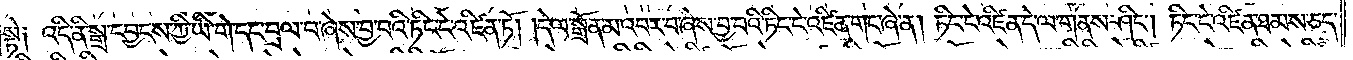སྟེ༑ འདི་ནི་སྒྲ་དབྱངས་ཀྱི་ཡི་གེ་དང་བྲལ་བ་ཞེས་བྱ་བའི་ཏིང་ངེ་འཛིན་ཏོ། །དེ་ལ་སྒྲོན་མ་འབར་བ་ཞེས་བྱ་བའི་ཏིང་ངེ་འཛིན་གང་ཞེ་ན། ཏིང་ངེ་འཛིན་དེ་ལ་གནས་ཤིང༌། ཏིང་ངེ་འཛིན་ཐམས་ཅད་
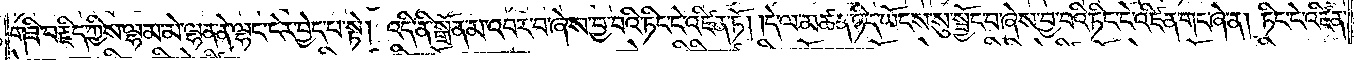གཟི་བརྗིད་ཀྱིས་ལྷམ་མེ་ལྷན་ནེ་ལྷང་ངེར་བྱེད་པ་སྟེ། འདི་ནི་སྒྲོན་མ་འབར་བ་ཞེས་བྱ་བའི་ཏིང་ངེ་འཛིན་ཏོ། །དེ་ལ་མཚན་ཉིད་ཡོངས་སུ་སྦྱོང་བ་ཞེས་བྱ་བའི་ཏིང་ངེ་འཛིན་གང་ཞེ་ན། ཏིང་ངེ་འཛིན་
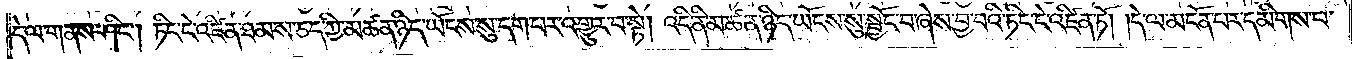དེ་ལ་གནས་ཤིང༌། ཏིང་ངེ་འཛིན་ཐམས་ཅད་ཀྱི་མཚན་ཉིད་ཡོངས་སུ་དག་པར་འགྱུར་བ་སྟེ། འདི་ནི་མཚན་ཉིད་ཡོངས་སུ་སྤྱོད་པ་ཞེས་བྱ་བའི་ཏིང་ངེ་འཛིན་ཏོ། །དེ་ལ་མངོན་པར་དམིགས་པ་
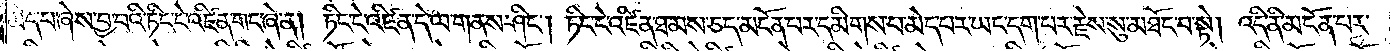མེད་པ་ཞེས་བྱ་བའི་ཏིང་ངེ་འཛིན་གང་ཞེ་ན། ཏིང་ངེ་འཛིན་དེ་ལ་གནས་ཤིང༌། ཏིང་ངེ་འཛིན་ཐམས་ཅད་མངོན་པར་དམིགས་པ་མེད་པར་ཡང་དག་པར་རྗེས་སུ་མཐོང་བ་སྟེ། འདི་ནི་མངོན་པར་
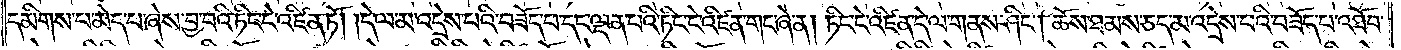དམིགས་པ་མེད་པ་ཞེས་བྱ་བའི་ཏིང་ངེ་འཛིན་ཏོ། །དེ་ལ་མ་འདྲེས་པའི་བཟོད་པ་དང་ལྡན་པའི་ཏིང་ངེ་འཛིན་གང་ཞེ་ན། ཏིང་ངེ་འཛིན་དེ་ལ་གནས་ཤིང༌། ཆོས་ཐམས་ཅད་མ་འདྲེས་པའི་བཟོད་པ་འཐོབ་
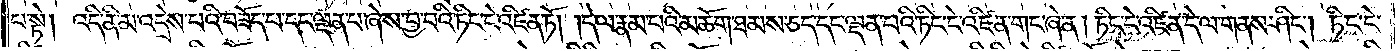པ་སྟེ། འདི་ནི་མ་འདྲེས་པའི་བཟོད་པ་དང་ལྡན་པ་ཞེས་བྱ་བའི་ཏིང་ངེ་འཛིན་ཏོ། །དེ་ལ་རྣམ་པའི་མཆོག་ཐམས་ཅད་དང་ལྡན་པའི་ཏིང་ངེ་འཛིན་གང་ཞེ་ན། ཏིང་ངེ་འཛིན་དེ་ལ་གནས་ཤིང༌། ཏིང་ངེ་
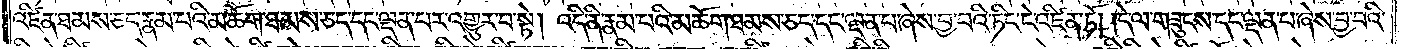འཛིན་ཐམས་ཅད་རྣམ་པའི་མཆོག་ཐམས་ཅད་དང་ལྡན་པར་འགྱུར་པ་སྟེ། འདི་ནི་རྣམ་པའི་མཆོག་ཐམས་ཅད་དང་ལྡན་པ་ཞེས་བྱ་བའི་ཏིང་ངེ་འཛིན་ཏོ། །དེ་ལ་གཟུངས་དང་ལྡན་པ་ཞེས་བྱ་བའི་
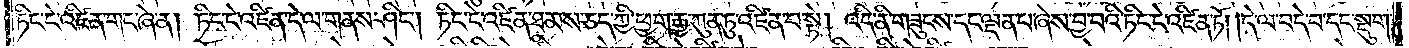ཏིང་ངེ་འཛིན་གང་ཞེ་ན། ཏིང་ངེ་འཛིན་དེ་ལ་གནས་ཤིང༌། ཏིང་ངེ་འཛིན་ཐམས་ཅད་ཀྱི་ཕྱག་རྒྱ་ཀུན་ཏུ་འཛིན་པ་སྟེ། འདི་ནི་གཟུངས་དང་ལྡན་པ་ཞེས་བྱ་བའི་ཏིང་ངེ་འཛིན་ཏོ། །དེ་ལ་བདེ་བ་དང་སྡུག་
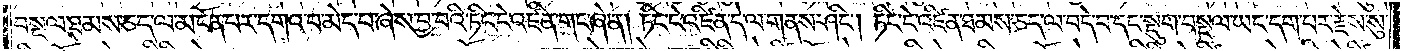བསྔལ་ཐམས་ཅད་ལ་མངོན་པར་དགའ་བ་མེད་པ་ཞེས་བྱ་བའི་ཏིང་ངེ་འཛིན་གང་ཞེ་ན། ཏིང་ངེ་འཛིན་དེ་ལ་གནས་ཤིང༌། ཏིང་ངེ་འཛིན་ཐམས་ཅད་ལ་བདེ་བ་དང་སྡུག་བསྔལ་ཡང་དག་པར་རྗེས་སུ་
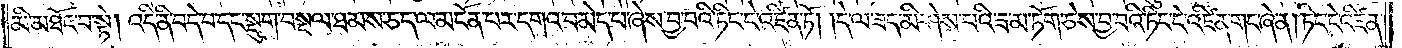མི་མཐོང་བ་སྟེ། འདི་ནི་བདེ་བ་དང་སྡུག་བསྔལ་ཐམས་ཅད་ལ་མངོན་པར་དགའ་བ་མེད་པ་ཞེས་བྱ་བའི་ཏིང་ངེ་འཛིན་ཏོ། །དེ་ལ་ཟད་མི་ཤེས་པའི་ཟ་མ་ཏོག་ཅེས་བྱ་བའི་ཏིང་ངེ་འཛིན་གང་ཞེ་ན། ཏིང་ངེ་འཛིན་
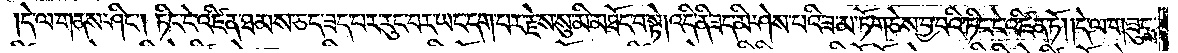དེ་ལ་གནས་ཤིང༌། ཏིང་ངེ་འཛིན་ཐམས་ཅད་ཟད་པར་རུང་བར་ཡང་དག་པར་རྗེས་སུ་མི་མཐོང་བ་སྟེ། འདི་ནི་ཟད་མི་ཤེས་པའི་ཟ་མ་ཏོག་ཅེས་བྱ་བའི་ཏིང་ངེ་འཛིན་ཏོ། །དེ་ལ་གཟུངས་
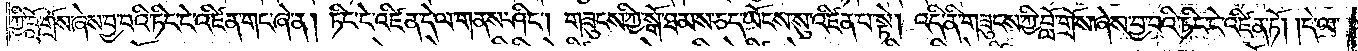ཀྱི་བློ་གྲོས་ཞེས་བྱ་བའི་ཏིང་ངེ་འཛིན་གང་ཞེ་ན། ཏིང་ངེ་འཛིན་དེ་ལ་གནས་ཤིང༌། གཟུངས་ཀྱི་སྒོ་ཐམས་ཅད་ཡོངས་སུ་འཛིན་པ་སྟེ། འདི་ནི་གཟུངས་ཀྱི་བློ་གྲོས་ཞེས་བྱ་བའི་ཏིང་ངེ་འཛིན་ཏོ། །དེ་ལ་
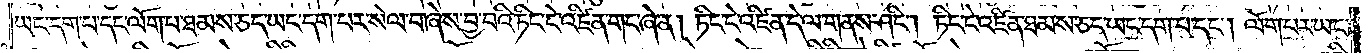ཡང་དག་པ་དང་ལོག་པ་ཐམས་ཅད་ཡང་དག་པར་སེལ་བ་ཞེས་བྱ་བའི་ཏིང་ངེ་འཛིན་གང་ཞེ་ན། ཏིང་ངེ་འཛིན་དེ་ལ་གནས་ཤིང༌། ཏིང་ངེ་འཛིན་ཐམས་ཅད་ཡང་དག་པ་དང༌། ལོག་པར་ཡང་
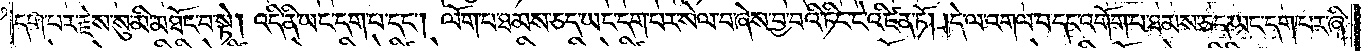དག་པར་རྗེས་སུ་མི་མཐོང་བ་སྟེ། འདི་ནི་ཡང་དག་པ་དང༌། ལོག་པ་ཐམས་ཅད་ཡང་དག་པར་སེལ་བ་ཞེས་བྱ་བའི་ཏིང་ངེ་འཛིན་ཏོ། །དེ་ལ་འགལ་བ་དང་འགོག་པ་ཐམས་ཅད་ཡང་དག་པར་ཞི་
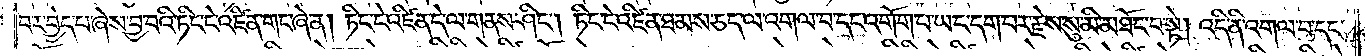བར་བྱེད་པ་ཞེས་བྱ་བའི་ཏིང་ངེ་འཛིན་གང་ཞེ་ན། ཏིང་ངེ་འཛིན་དེ་ལ་གནས་ཤིང༌། ཏིང་ངེ་འཛིན་ཐམས་ཅད་ལ་འགལ་བ་དང་འགོག་པ་ཡང་དག་པར་རྗེས་སུ་མི་མཐོང་བ་སྟེ། འདི་ནི་འགལ་བ་དང་
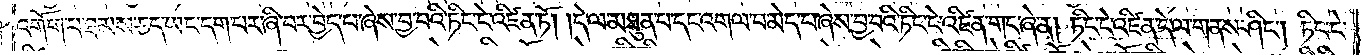འགོག་པ་ཐམས་ཅད་ཡང་དག་པར་ཞི་བར་བྱེད་པ་ཞེས་བྱ་བའི་ཏིང་ངེ་འཛིན་ཏོ། །དེ་ལ་མཐུན་པ་དང་འགལ་བ་མེད་པ་ཞེས་བྱ་བའི་ཏིང་ངེ་འཛིན་གང་ཞེ་ན། ཏིང་ངེ་འཛིན་དེ་ལ་གནས་ཤིང༌། ཏིང་ངེ་
